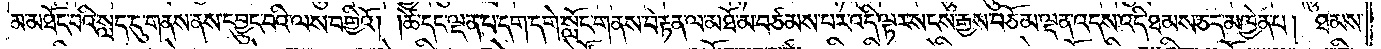མ་མཐོང་བའི་སླད་དུ་གནས་ནས་དབྱུང་བའི་ལས་བགྱིའོ། །ཚེ་དང་ལྡན་པ་དག་དགེ་སློང་གནས་བརྟན་ལ་མཐོ་མ་བཙམས་པར་འདི་ལྟར་སངས་རྒྱས་བཅོམ་ལྡན་འདས་འདི་ཐམས་ཅད་མཁྱེན་པ། ཐམས་
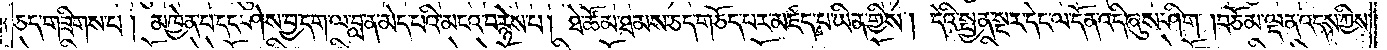ཅད་གཟིགས་པ། མཁྱེན་པ་དང་ཤེས་བྱ་དག་ལ་བླ་ན་མེད་པའི་མངའ་བརྙེས་པ། ཐེ་ཚོམ་ཐམས་ཅད་གཅོད་པར་མཛད་པ་ཡིན་གྱིས། དེའི་སྤྱན་སྔར་དེང་ལ་དོན་འདི་ཞུས་ཤིག །བཅོམ་ལྡན་འདས་ཀྱིས་
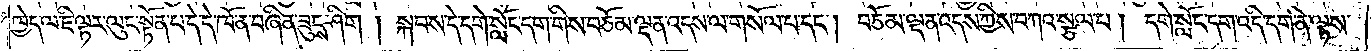ཁྱེད་ལ་ཇི་ལྟར་ལུང་སྟོན་པ་དེ་དེ་ཁོ་ན་བཞིན་ཟུངས་ཤིག །སྐབས་དེ་དགེ་སློང་དག་གིས་བཅོམ་ལྡན་འདས་ལ་གསོལ་པ་དང༌། བཅོམ་ལྡན་འདས་ཀྱིས་བཀའ་སྩལ་པ། དགེ་སློང་དག་འདི་དག་ནི་ལྟས་
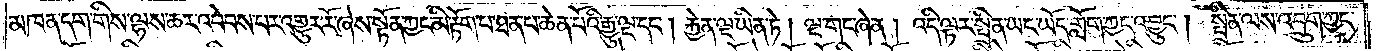མཁན་དག་གིས་ལྷས་ཆར་འབེབས་པར་འགྱུར་རོ་ཞེས་སྟོན་ཀྱང་མི་རྟོག་པ་ཐན་པ་ཆེན་པོའི་རྒྱུ་ལྔ་དང༌། རྐྱེན་ལྔ་ཡིན་ཏེ། ལྔ་གང་ཞེ་ན། འདི་ལྟར་སྤྲིན་ཡང་ཡོད་གློག་ཀྱང་འབྱུང༌། སྤྲིན་ལས་འབྲུག་ཀྱང་
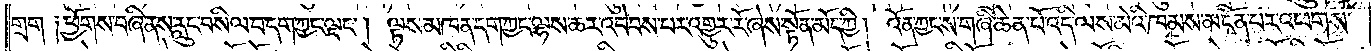གྲག་༑ཕྱོགས་བཞི་ནས་རླུང་བསིལ་བ་དག་ཀྱང་ལྡང༌། ལྟས་མཁན་དག་ཀྱང་ལྷས་ཆར་འབེབས་པར་འགྱུར་རོ་ཞེས་སྟོན་མོད་ཀྱི། འོན་ཀྱང་ས་གཞི་ཆེན་པོ་འདི་ལས་མེའི་ཁམས་མངོན་པར་འཕགས་
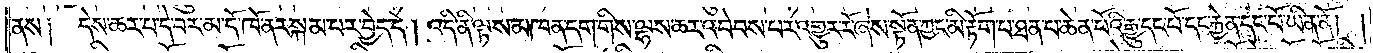ནས༑ དེས་ཆར་པ་དེ་བར་མ་དོ་ཁོ་ནར་སྐམ་པར་བྱེད་དེ། འདི་ནི་ལྟས་མཁན་དག་གིས་ལྷས་ཆར་འབེབས་པར་འགྱུར་རོ་ཞེས་སྟོན་ཀྱང་མི་རྟོག་པ་ཐན་པ་ཆེན་པོའི་རྒྱུ་དང་པོ་དང་རྐྱེན་དང་པོ་ཡིན་ནོ། །
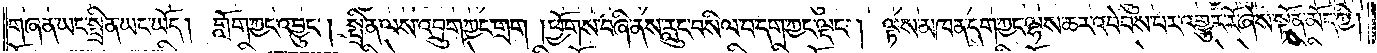གཞན་ཡང་སྤྲིན་ཡང་ཡོད། གློག་ཀྱང་འབྱུང༌། སྤྲིན་ལས་འབྲུག་ཀྱང་གྲག །ཕྱོགས་བཞི་ནས་རླུང་བསིལ་བ་དག་ཀྱང་ལྡང༌། ལྟས་མཁན་དག་ཀྱང་ལྷས་ཆར་འབེབས་པར་འགྱུར་རོ་ཞེས་སྟོན་མོད་ཀྱི།
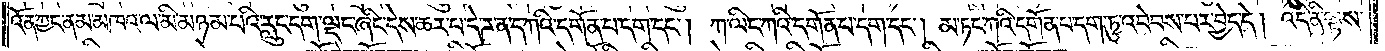འོན་ཀྱང་ནམ་མཁའ་ལ་མི་མཉམ་པའི་རླུང་དག་ལྡང་ཞིང་དེས་ཆར་པ་དེ་ཌ་ན་ད་ཀའི་དགོན་པ་དག་དང༌། ཀ་ལིང་ཀའི་དགོན་པ་དག་དང༌། མ་ཏང་ཀའི་དགོན་པ་དག་ཏུ་འབེབས་པར་བྱེད་དེ། འདི་ནི་ལྟས་
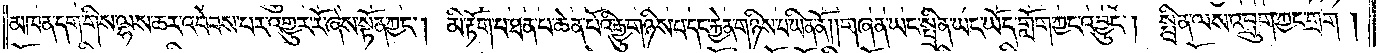མཁན་དག་གིས་ལྷས་ཆར་འབེབས་པར་འགྱུར་རོ་ཞེས་སྟོན་ཀྱང༌། མི་རྟོག་པ་ཐན་པ་ཆེན་པོའི་རྒྱུ་གཉིས་པ་དང་རྐྱེན་གཉིས་པ་ཡིན་ནོ། །གཞན་ཡང་སྤྲིན་ཡང་ཡོད་གློག་ཀྱང་འབྱུང༌། སྤྲིན་ལས་འབྲུག་ཀྱང་གྲག །
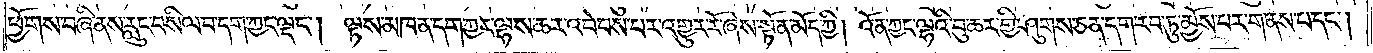ཕྱོགས་བཞི་ནས་རླུང་བསིལ་བ་དག་ཀྱང་ལྡང༌། ལྟས་མཁན་དག་ཀྱང་ལྷས་ཆར་འབེབས་པར་འགྱུར་རོ་ཞེས་སྟོན་མོད་ཀྱི། འོན་ཀྱང་ལྷའི་བུ་ཆར་གྱི་ཤུགས་ཅན་དག་རབ་ཏུ་མྱོས་པར་གནས་པ་དང༌།
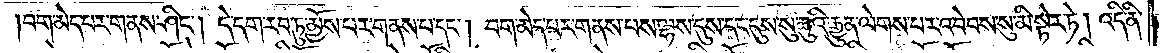བག་མེད་པར་གནས་ཤིང༌། དེ་དག་རབ་ཏུ་མྱོས་པར་གནས་པ་དང༌། བག་མེད་པར་གནས་པས་ལྷས་དུས་དང་དུས་སུ་ཆུའི་རྒྱུན་ལེགས་པར་འབེབས་སུ་མི་སྟེར་ཏེ། འདི་ནི་
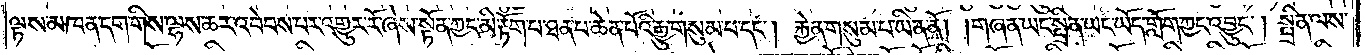ལྟས་མཁན་དག་གིས་ལྷས་ཆར་འབེབས་པར་འགྱུར་རོ་ཞེས་སྟོན་ཀྱང་མི་རྟོག་པ་ཐན་པ་ཆེན་པོའི་རྒྱུ་གསུམ་པ་དང༌། རྐྱེན་གསུམ་པ་ཡིན་ནོ། །གཞན་ཡང་སྤྲིན་ཡང་ཡོད་གློག་ཀྱང་འབྱུང༌། སྤྲིན་ལས་
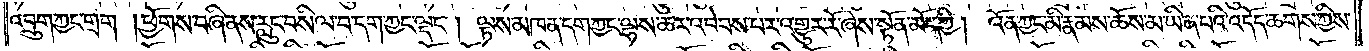འབྲུག་ཀྱང་གྲག །ཕྱོགས་བཞི་ནས་རླུང་བསིལ་བ་དག་ཀྱང་ལྡང༌། ལྟས་མཁན་དག་ཀྱང་ལྷས་ཆར་འབེབས་པར་འགྱུར་རོ་ཞེས་སྟོན་མོད་ཀྱི། འོན་ཀྱང་མི་རྣམས་ཆོས་མ་ཡིན་པའི་འདོད་ཆགས་ཀྱིས་
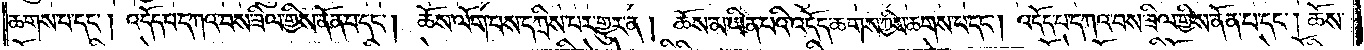ཆགས་པ་དང༌། འདོད་པ་དཀའ་བས་ཟིལ་གྱིས་ནོན་པ་དང༌། ཆོས་ལོག་པས་དཀྲིས་པར་གྱུར་ན། ཆོས་མ་ཡིན་པའི་འདོད་ཆགས་ཀྱིས་ཆགས་པ་དང༌། འདོད་པ་དཀའ་བས་ཟིལ་གྱིས་ནོན་པ་དང༌། ཆོས་
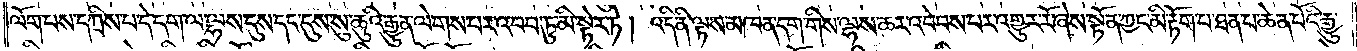ལོག་པས་དཀྲིས་པ་དེ་དག་ལ་ལྷས་དུས་དང་དུས་སུ་ཆུའི་རྒྱུན་ལེགས་པར་འབབ་ཏུ་མི་སྟེར་ཏེ། འདི་ནི་ལྟས་མཁན་དག་གིས་ལྷས་ཆར་འབེབས་པར་འགྱུར་རོ་ཞེས་སྟོན་ཀྱང་མི་རྟོག་པ་ཐན་པ་ཆེན་པོའི་རྒྱུ་
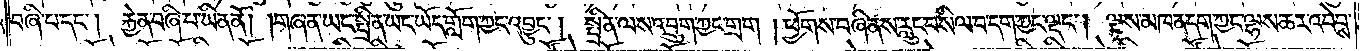བཞི་པ་དང༌། རྐྱེན་བཞི་པ་ཡིན་ནོ། །གཞན་ཡང་སྤྲིན་ཡང་ཡོད་གློག་ཀྱང་འབྱུང༌། སྤྲིན་ལས་འབྲུག་ཀྱང་གྲག །ཕྱོགས་བཞི་ནས་རླུང་བསིལ་བ་དག་ཀྱང་ལྡང༌། ལྟས་མཁན་དག་ཀྱང་ལྷས་ཆར་འབེབས་
